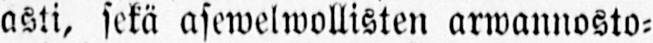asti, sekä asewelwollisten arwannosto-
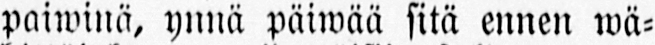paiwinä, ynnä päiwää sitä ennen wä-
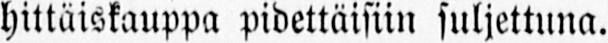hittäiskauppa pidettäisiin suljettuna.
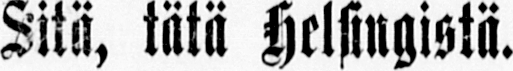Sitä, tätä Helsingistä.
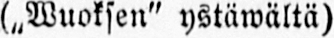(„Wuoksen" ystäwältä).
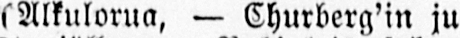(Alkulorua, — Churberg'in ju-
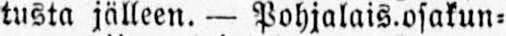tusta jälleen. — Pohjalais.osakun-
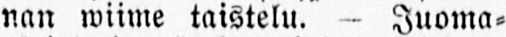nan wiime taistelu. - Juoma-
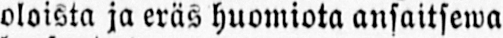oloista ja eräs huomiota ansaitsewa
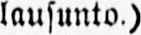lausunto.)
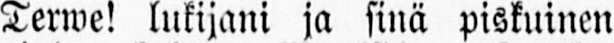Terwe! lukijani ja sinä piskuinen
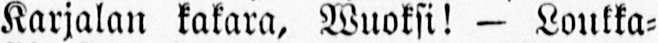Karjalan kakara, Wuoksi! — Loukka-
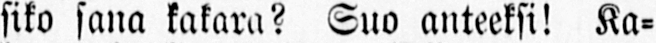siko sana kakara? Suo anteeksi! Ka-
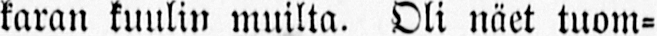karan kuulin muilta. Oli näet tuom-
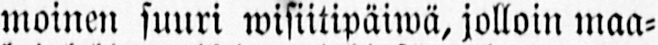moinen suuri wisiitipäiwä, jolloin maa-
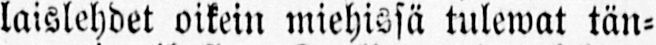laislehdet oikein miehissä tulewat tän-
